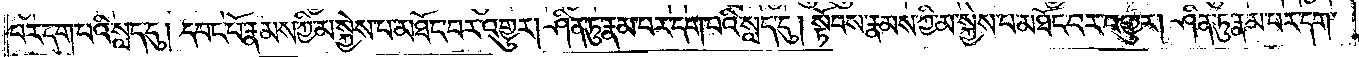པར་དག་པའི་སླད་དུ། དབང་པོ་རྣམས་ཀྱི་མ་སྐྱེས་པ་མཐོང་བར་འགྱུར། ཤིན་ཏུ་རྣམ་པར་དག་པའི་སླད་དུ། སྟོབས་རྣམས་ཀྱི་མ་སྐྱེས་པ་མཐོང་བར་འགྱུར། །ཤིན་ཏུ་རྣམ་པར་དག་
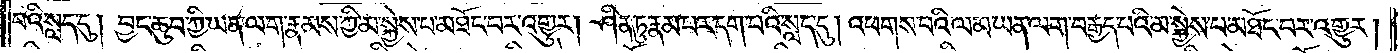པའི་སླད་དུ། བྱང་ཆུབ་ཀྱི་ཡན་ལག་རྣམས་ཀྱི་མ་སྐྱེས་པ་མཐོང་བར་འགྱུར། ཤིན་ཏུ་རྣམ་པར་དག་པའི་སླད་དུ། འཕགས་པའི་ལམ་ཡན་ལག་བརྒྱད་པའི་མ་སྐྱེས་པ་མཐོང་བར་འགྱུར།
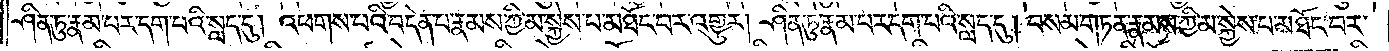ཤིན་ཏུ་རྣམ་པར་དག་པའི་སླད་དུ། འཕགས་པའི་བདེན་པ་རྣམས་ཀྱི་མ་སྐྱེས་པ་མཐོང་བར་འགྱུར། ཤིན་ཏུ་རྣམ་པར་དག་པའི་སླད་དུ། བསམ་གཏན་རྣམས་ཀྱི་མ་སྐྱེས་པ་མཐོང་བར་
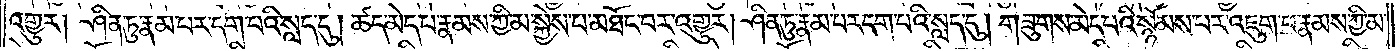འགྱུར། ཤིན་ཏུ་རྣམ་པར་དག་པའི་སླད་དུ། ཚད་མེད་པ་རྣམས་ཀྱི་མ་སྐྱེས་པ་མཐོང་བར་འགྱུར། ཤིན་ཏུ་རྣམ་པར་དག་པའི་སླད་དུ། གཟུགས་མེད་པའི་སྙོམས་པར་འཇུག་པ་རྣམས་ཀྱི་མ་
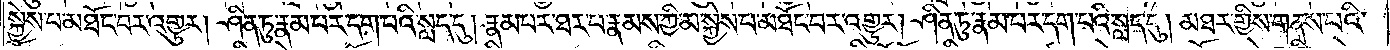སྐྱེས་པ་མཐོང་བར་འགྱུར། ཤིན་ཏུ་རྣམ་པར་དག་པའི་སླད་དུ། རྣམ་པར་ཐར་པ་རྣམས་ཀྱི་མ་སྐྱེས་པ་མཐོང་བར་འགྱུར། ཤིན་ཏུ་རྣམ་པར་དག་པའི་སླད་དུ། མཐར་གྱིས་གནས་པའི་
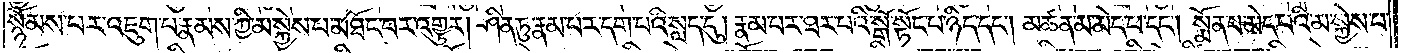སྙོམས་པར་འཇུག་པ་རྣམས་ཀྱི་མ་སྐྱེས་པ་མཐོང་བར་འགྱུར། ཤིན་ཏུ་རྣམ་པར་དག་པའི་སླད་དུ། རྣམ་པར་ཐར་པའི་སྒོ་སྟོང་པ་ཉིད་དང༌། མཚན་མ་མེད་པ་དང༌། སྨོན་པ་མེད་པའི་མ་སྐྱེས་པ་
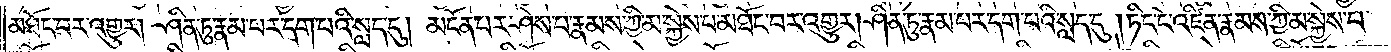མཐོང་བར་འགྱུར། ཤིན་ཏུ་རྣམ་པར་དག་པའི་སླད་དུ། མངོན་པར་ཤེས་པ་རྣམས་ཀྱི་མ་སྐྱེས་པ་མཐོང་བར་འགྱུར། ཤིན་ཏུ་རྣམ་པར་དག་པའི་སླད་དུ། ཏིང་ངེ་འཛིན་རྣམས་ཀྱི་མ་སྐྱེས་པ་
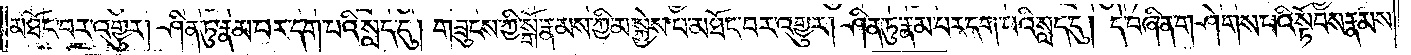མཐོང་བར་འགྱུར། ཤིན་ཏུ་རྣམ་པར་དག་པའི་སླད་དུ། གཟུངས་ཀྱི་སྒོ་རྣམས་ཀྱི་མ་སྐྱེས་པ་མཐོང་བར་འགྱུར། ཤིན་ཏུ་རྣམ་པར་དག་པའི་སླད་དུ། དེ་བཞིན་གཤེགས་པའི་སྟོབས་རྣམས་
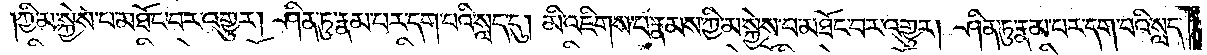ཀྱི་མ་སྐྱེས་པ་མཐོང་བར་འགྱུར། ཤིན་ཏུ་རྣམ་པར་དག་པའི་སླད་དུ། མི་འཇིགས་པ་རྣམས་ཀྱི་མ་སྐྱེས་པ་མཐོང་བར་འགྱུར། ཤིན་ཏུ་རྣམ་པར་དག་པའི་སླད་
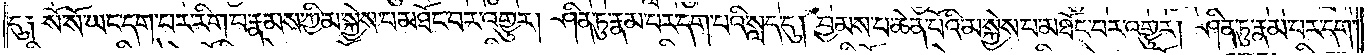དུ༏ སོ་སོ་ཡང་དག་པར་རིག་པ་རྣམས་ཀྱི་མ་སྐྱེས་པ་མཐོང་བར་འགྱུར། ཤིན་ཏུ་རྣམ་པར་དག་པའི་སླད་དུ། བྱམས་པ་ཆེན་པོའི་མ་སྐྱེས་པ་མཐོང་བར་འགྱུར། ཤིན་ཏུ་རྣམ་པར་དག་
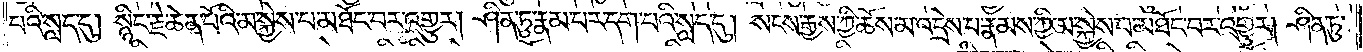པའི་སླད་དུ། སྙིང་རྗེ་ཆེན་པོའི་མ་སྐྱེས་པ་མཐོང་བར་འགྱུར། ཤིན་ཏུ་རྣམ་པར་དག་པའི་སླད་དུ། སངས་རྒྱས་ཀྱི་ཆོས་མ་འདྲེས་པ་རྣམས་ཀྱི་མ་སྐྱེས་པ་མཐོང་བར་འགྱུར། ཤིན་ཏུ་
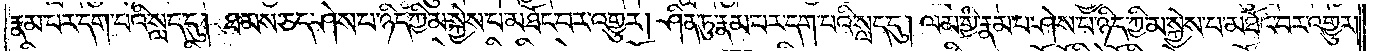རྣམ་པར་དག་པའི་སླད་དུ། ཐམས་ཅད་ཤེས་པ་ཉིད་ཀྱི་མ་སྐྱེས་པ་མཐོང་བར་འགྱུར། ཤིན་ཏུ་རྣམ་པར་དག་པའི་སླད་དུ། ལམ་གྱི་རྣམ་པར་ཤེས་པ་ཉིད་ཀྱི་མ་སྐྱེས་པ་མཐོང་བར་འགྱུར།
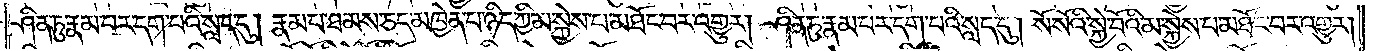ཤིན་ཏུ་རྣམ་པར་དག་པའི་སླད་དུ། རྣམ་པ་ཐམས་ཅད་མཁྱེན་པ་ཉིད་ཀྱི་མ་སྐྱེས་པ་མཐོང་བར་འགྱུར། ཤིན་ཏུ་རྣམ་པར་དག་པའི་སླད་དུ། སོ་སོའི་སྐྱེ་བོའི་མ་སྐྱེས་པ་མཐོང་བར་འགྱུར།
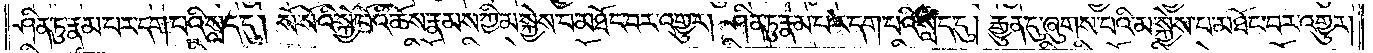ཤིན་ཏུ་རྣམ་པར་དག་པའི་སླད་དུ། སོ་སོའི་སྐྱེ་བོའི་ཆོས་རྣམས་ཀྱི་མ་སྐྱེས་པ་མཐོང་བར་འགྱུར། ཤིན་ཏུ་རྣམ་པར་དག་པའི་སླད་དུ། རྒྱུན་དུ་ཞུགས་པའི་མ་སྐྱེས་པ་མཐོང་བར་འགྱུར།
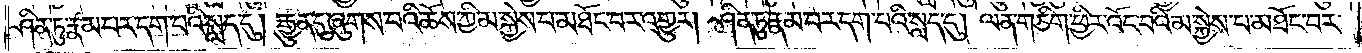ཤིན་ཏུ་རྣམ་པར་དག་པའི་སླད་དུ། རྒྱུན་དུ་ཞུགས་པའི་ཆོས་ཀྱི་མ་སྐྱེས་པ་མཐོང་བར་འགྱུར། ཤིན་ཏུ་རྣམ་པར་དག་པའི་སླད་དུ། ལན་ཅིག་ཕྱིར་འོང་བའི་མ་སྐྱེས་པ་མཐོང་བར་
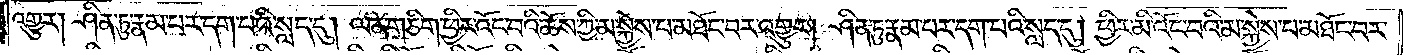འགྱུར། ཤིན་ཏུ་རྣམ་པར་དག་པའི་སླད་དུ། ལན་ཅིག་ཕྱིར་འོང་བའི་ཆོས་ཀྱི་མ་སྐྱེས་པ་མཐོང་བར་འགྱུར། ཤིན་ཏུ་རྣམ་པར་དག་པའི་སླད་དུ། ཕྱིར་མི་འོང་བའི་མ་སྐྱེས་པ་མཐོང་བར་
